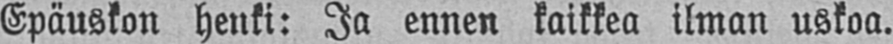Epäuskon henki: Ja ennen kaikkea ilman uskoa.
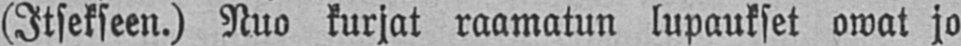(Itsekseen.) Nuo kurjat raamatun lupaukset owat jo
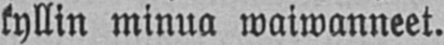kyllin minua waiwanneet.
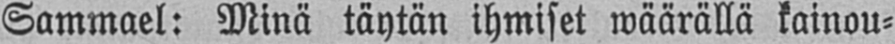Sammael: Minä täytän ihmiset wäärällä kainou-
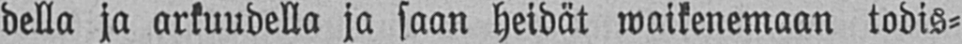della ja arkuudella ja saan heidät waikenemaan todis-
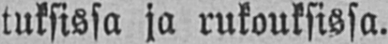tuksissa ja rukouksissa.
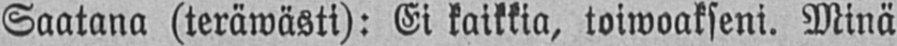Saatana (teräwästi): Ei kaikkia, toiwoakseni. Minä
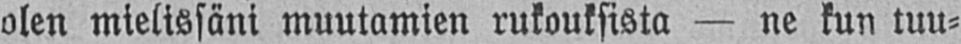olen mielissäni muutamien rukouksista — ne kun tuu-
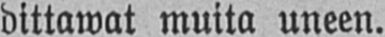dittawat muita uneen.
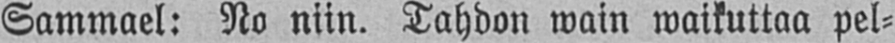Sammael: No niin. Tahdon wain waikuttaa pel-
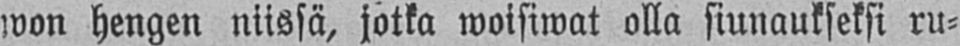won hengen niissä, jotka woisiwat olla siunaukseksi ru-
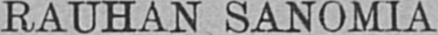RAUHAN SANOMIA.
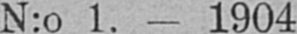N:o 1. - 1904.
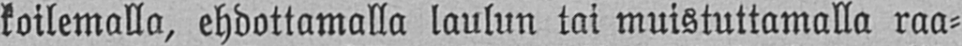koilemalla, ehdottamalla laulun tai muistuttamalla raa-
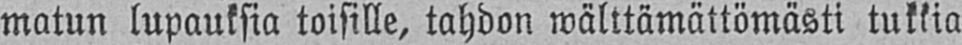matun lupauksia toisille, tahdon wälttämättömästi tukkia
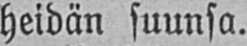heidän suunsa.
